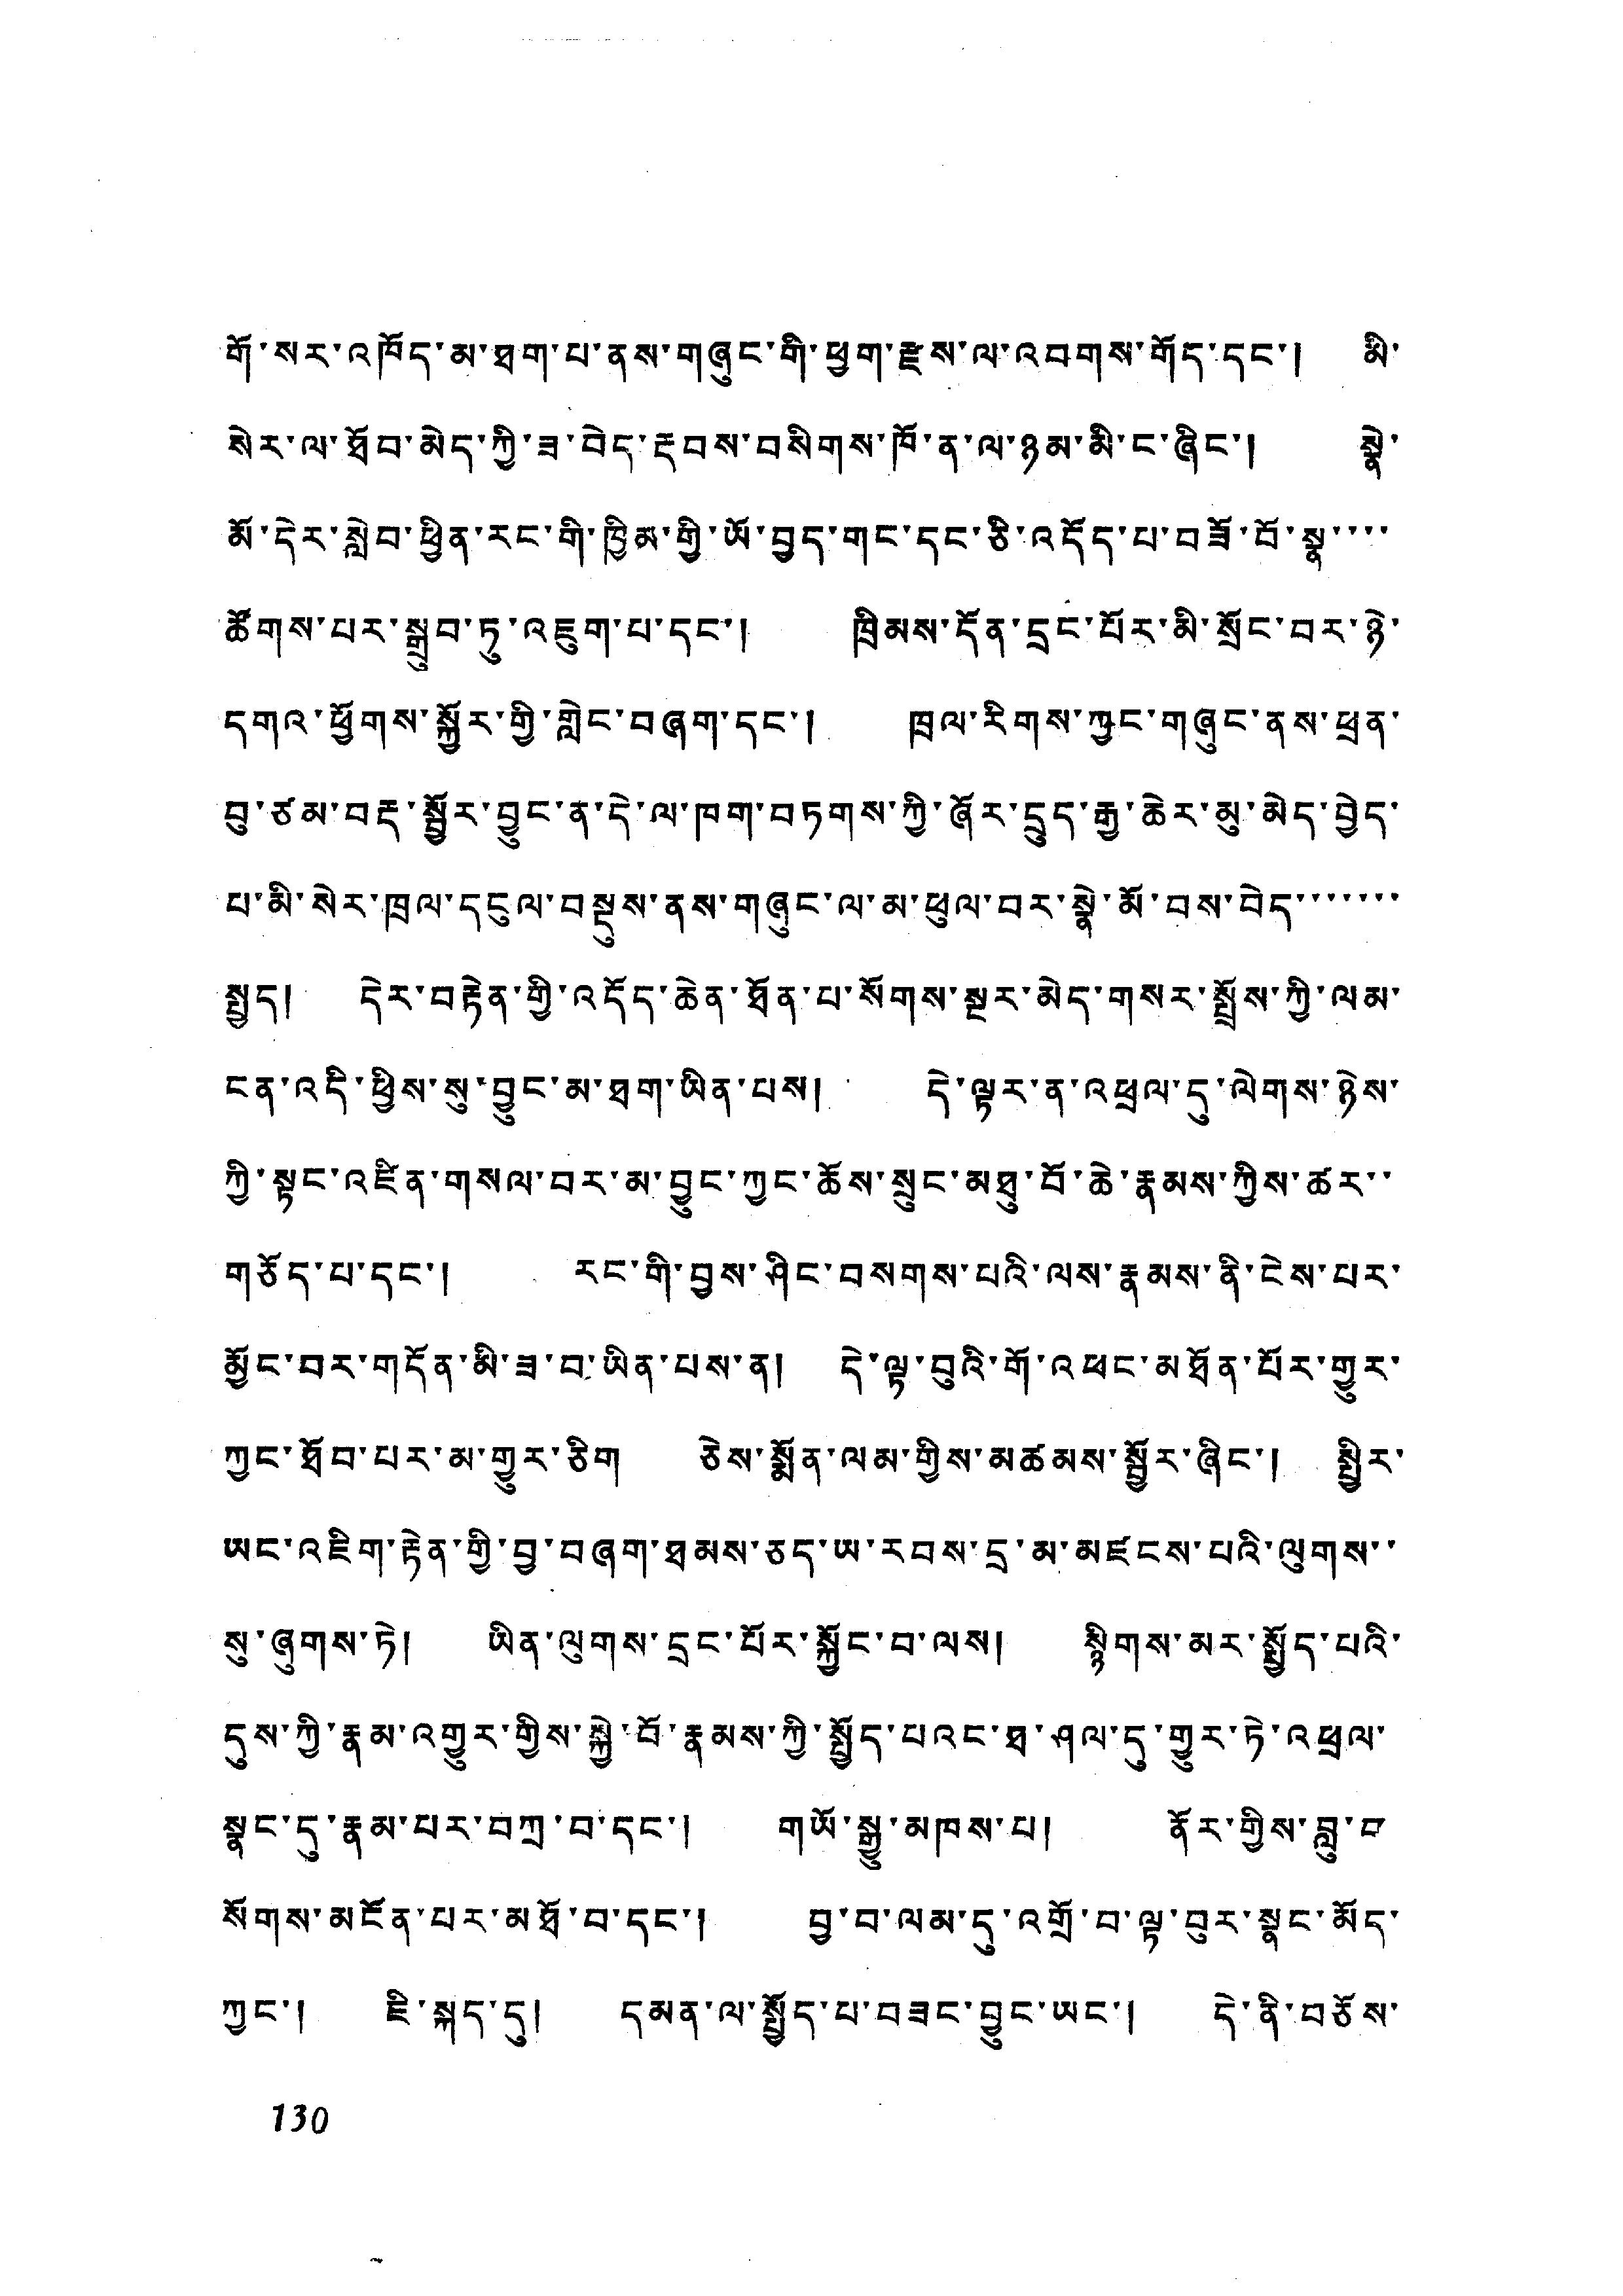གོ་སར་འཁོད་མ་ཐག་པ་ནས་གཞུང་གི་ཕྱག་རྫས་ལ་འབགས་གོད་དང་། མི་
སེར་ལ་ཐོབ་མེད་ཀྱི་ཟ་བྱེད་རྡབས་བསིགས་ཁོ་ན་ལ་ཉམ་མི་ང་ཞིང་། སྣེ་
མོ་དེར་སླེབ་ཕྱིན་རང་གི་ཁྱིམ་གྱི་ཡོ་བྱད་གང་དང་ཅི་འདོད་པ་བཟོ་བོ་སྣ་་་་
ཚོགས་པར་སྒྲུབ་ཏུ་འཇུག་པ་དང་། ཁྲིམས་དོན་དྲང་པོར་མི་སྲོང་བར་ཉེ་
དགའ་ཕྱོགས་སྐྱོར་གྱི་གླེང་བཞག་དང་། ཁྲལ་རིགས་ཀྱང་གཞུང་ནས་ཕྲན་
བུ་ཙམ་བརྡ་སྦྱོར་བྱུང་ན་དེ་ལ་ཁག་བཏགས་ཀྱི་ཞོར་དྲུད་རྒྱ་ཆེར་མུ་མེད་བྱེད་
པ་མི་སེར་ཁྲལ་དངུལ་བསྡུས་ནས་གཞུང་ལ་མ་ཕུལ་བར་སྣེ་མོ་བས་བེད་་་་་་་
སྤྱད། དེར་བརྟེན་གྱི་འདོད་ཆེན་ཐོན་པ་སོགས་སྔར་མེད་གསར་སྤྲོས་ཀྱི་ལམ་
ངན་འདི་ཕྱིས་སུ་བྱུང་མ་ཐག་ཡིན་པས། དེ་ལྟར་ན་འཕྲལ་དུ་ལེགས་ཉེས་
ཀྱི་སྟང་འཛིན་གསལ་བར་མ་བྱུང་ཀྱང་ཆོས་སྲུང་མཐུ་བོ་ཆེ་རྣམས་ཀྱིས་ཚར་་
གཅོད་པ་དང་། རང་གི་བྱས་ཤིང་བསགས་པའི་ལས་རྣམས་ནི་ངེས་པར་
མྱོང་བར་གདོན་མི་ཟ་བ་ཡིན་པས་ན། དེ་ལྟ་བུའི་གོ་འཕང་མཐོན་པོར་གྱུར་
ཀྱང་ཐོབ་པར་མ་གྱུར་ཅིག ཅེས་སྨོན་ལམ་གྱིས་མཚམས་སྦྱོར་ཞིང་། སྤྱིར་
ཡང་འཇིག་རྟེན་གྱི་བྱ་བཞག་ཐམས་ཅད་ཡ་རབས་དྲ་མ་མཛངས་པའི་ལུགས་་
སུ་ཞུགས་ཏེ། ཡིན་ལུགས་དྲང་པོར་སྐྱོང་བ་ལས། སྙིགས་མར་སྤྱོད་པའི་
དུས་ཀྱི་རྣམ་འགྱུར་གྱིས་སྐྱེ་བོ་རྣམས་ཀྱི་སྤྱོད་པའང་ཐ་ཤལ་དུ་གྱུར་ཏེ་འཕྲལ་
སྣང་དུ་རྣམ་པར་བཀྲ་བ་དང་། གཡོ་སྒྱུ་མཁས་པ། ནོར་གྱིས་བླུ་བ་
སོགས་མངོན་པར་མཐོ་བ་དང་། བྱ་བ་ལམ་དུ་འགྲོ་བ་ལྟ་བུར་སྣང་མོད་
ཀྱང་། ཇི་སྐད་དུ། དམན་ལ་སྤྱོད་པ་བཟང་བྱུང་ཡང་། དེ་ནི་བཅོས་
130
